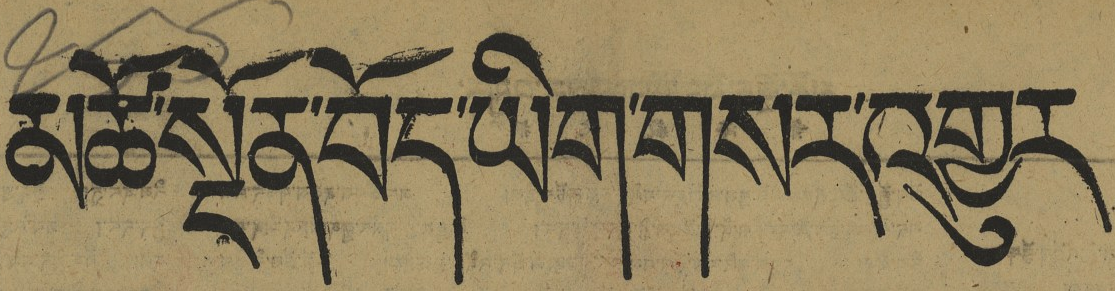མཚོ་སྔོན་བོད་ཡིག་གསར་འགྱུར
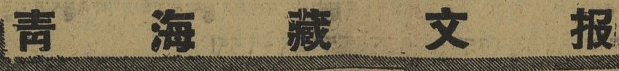靑 海 藏 文 报
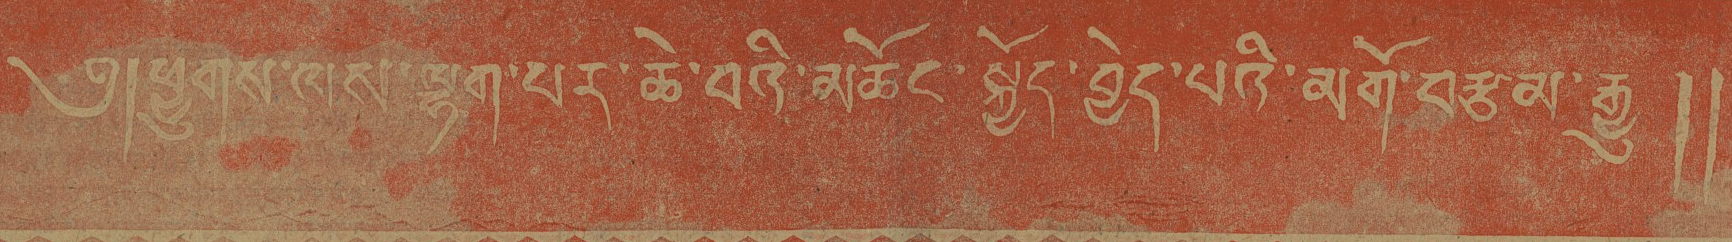࿓།ཕྱུགས་ལས་ལྷག་པར་ཆེ་བའི་མཆོང་སྐྱོད་བྱེད་པའི་མགོ་བརྩམ་རྒྱུ ༎
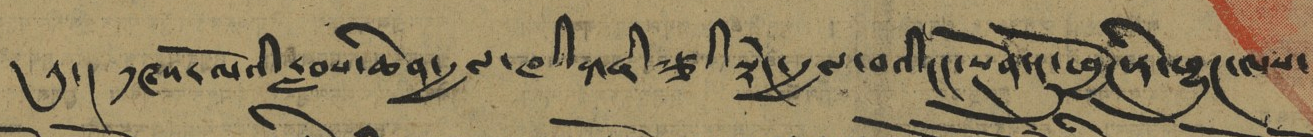༄། ༡༩༥༨ལོའི་རླབས་ཆེན་རྒྱལ་ཁའི་གཞི་རྩའི་སྟེང་རྒྱལ་བའི་ངང་སྔོན་དུ་ཕྱོགས་རེ་ཕྱུགས་ལས་
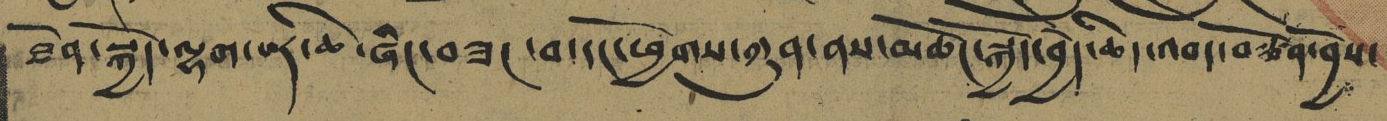ཐོན་སྐྱེད་ལྷག་པར་ཆེ་ཞིང་བཟང་བ་དང་ཕྱོགས་ཀུན་ནས་མཆོང་སྐྱོད་བྱེད་ཆེད་འབད་བརྩོན་བྱོས།
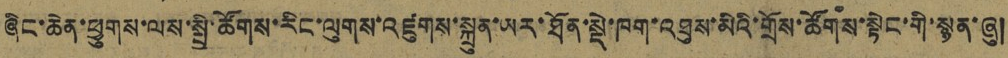ཞིང་ཆེན་ཕྱུགས་ལས་སྤྱི་ཚོགས་རིང་ལུགས་འཛུགས་སྐྲུན་ཡར་ཐོན་སྡེ་ཁག་འཐུས་མིའི་གྲོས་ཚོགས་སྟེང་གི་སྙན་ཞུ།
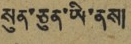སུན་ཅན་ཡི་ནས།
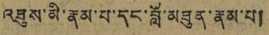འཐུས་མི་རྣམ་པ་དང་བློ་མཐུན་རྣམ་པ།
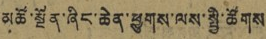མཚོ་སྔོན་ཞིང་ཆེན་ཕྱུགས་ལས་སྤྱི་ཚོགས
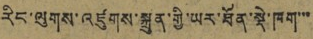རིང་ལུགས་འཛུགས་སྐྲུན་གྱི་ཡར་ཐོན་སྡེ་ཁག་་་
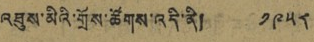འཐུས་མིའི་གྲོས་ཚོགས་འདི་ནི། ༡༩༥༨
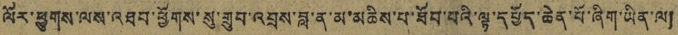ལོར་ཕྱུགས་ལས་འཐབ་ཕྱོགས་སུ་གྲུབ་འབྲས་བླ་ན་མ་མཆིས་པ་ཐོབ་པའི་ལྟ་དཔྱོད་ཆེན་པོ་ཞིག་ཡིན་ལ།
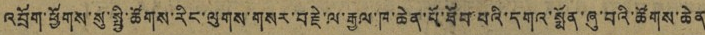འབྲོག་ཕྱོགས་སུ་སྤྱི་ཚོགས་རིང་ལུགས་གསར་བརྗེ་ལ་རྒྱལ་ཁ་ཆེན་པོ་ཐོབ་པའི་དགའ་སྨོན་ཞུ་བའི་ཚོགས་ཆེན་
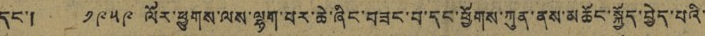དང་། ༡༩༥༩ ལོར་ཕྱུགས་ལས་ལྷག་པར་ཆེ་ཞིང་བཟང་བ་དང་ཕྱོགས་ཀུན་ནས་མཆོང་སྐྱོད་བྱེད་པའི་
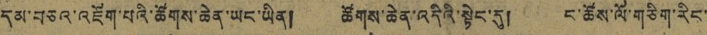དམ་བཅའ་འཇོག་པའི་ཚོགས་ཆེན་ཡང་ཡིན། ཚོགས་ཆེན་འདིའི་སྟེང་དུ། ང་ཚོས་ལོ་གཅིག་རིང་
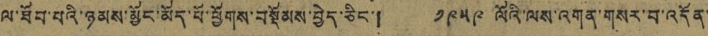ལ་ཐོབ་པའི་ཉམས་མྱོང་མོད་པོ་ཕྱོགས་བསྡོམས་བྱེད་ཅིང་། ༡༩༥༩ ལོའི་ལས་འགན་གསར་བ་འདོན་
